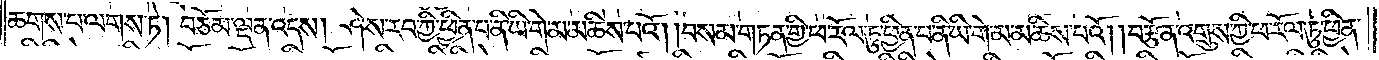ཆགས་པ་ལགས་ཏེ། བཅོམ་ལྡན་འདས། ཤེས་རབ་ཀྱི་ཕ་རོལ་ཏུ་ཕྱིན་པ་ནི་ཡི་གེ་མ་མཆིས་པའོ། །བསམ་གཏན་གྱི་ཕ་རོལ་ཏུ་ཕྱིན་པ་ནི་ཡི་གེ་མ་མཆིས་པའོ། །བརྩོན་འགྲུས་གྱི་ཕ་རོལ་ཏུ་ཕྱིན་
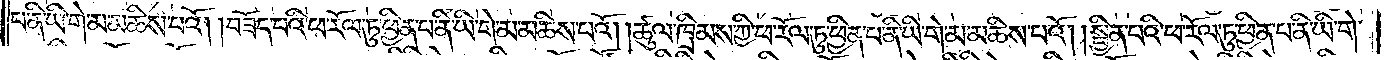པ་ནི་ཡི་གེ་མ་མཆིས་པའོ། །བཟོད་པའི་ཕ་རོལ་ཏུ་ཕྱིན་པ་ནི་ཡི་གེ་མ་མཆིས་པའོ། །ཚུལ་ཁྲིམས་ཀྱི་ཕ་རོལ་ཏུ་ཕྱིན་པ་ནི་ཡི་གེ་མ་མཆིས་པའོ། །སྦྱིན་པའི་ཕ་རོལ་ཏུ་ཕྱིན་པ་ནི་ཡི་གེ་
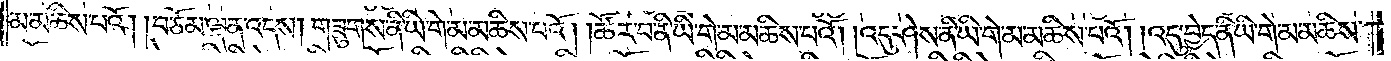མ་མཆིས་པའོ། །བཅོམ་ལྡན་འདས། གཟུགས་ནི་ཡི་གེ་མ་མཆིས་པའོ། །ཚོར་བ་ནི་ཡི་གེ་མ་མཆིས་པའོ། །འདུ་ཤེས་ནི་ཡི་གེ་མ་མཆིས་པའོ། །འདུ་བྱེད་ནི་ཡི་གེ་མ་མཆིས་
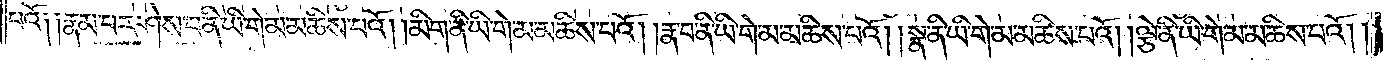པའོ༑ ༑རྣམ་པར་ཤེས་པ་ནི་ཡི་གེ་མ་མཆིས་པའོ། །མིག་ནི་ཡི་གེ་མ་མཆིས་པའོ། །རྣ་བ་ནི་ཡི་གེ་མ་མཆིས་པའོ། །སྣ་ནི་ཡི་གེ་མ་མཆིས་པའོ། །ལྕེ་ནི་ཡི་གེ་མ་མཆིས་པའོ། །
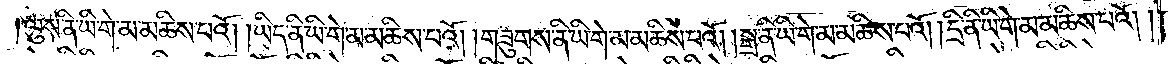ལུས་ནི་ཡི་གེ་མ་མཆིས་པའོ། །ཡིད་ནི་ཡི་གེ་མ་མཆིས་པའོ། །གཟུགས་ནི་ཡི་གེ་མ་མཆིས་པའོ། །སྒྲ་ནི་ཡི་གེ་མ་མཆིས་པའོ། །དྲི་ནི་ཡི་གེ་མ་མཆིས་པའོ། །
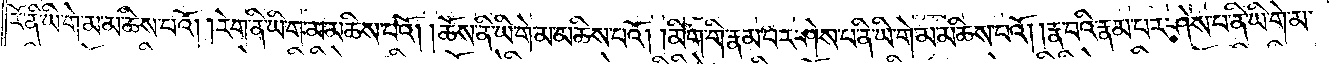རོ་ནི་ཡི་གེ་མ་མཆིས་པའོ། །རེག་ནི་ཡི་གེ་མ་མཆིས་པའོ། །ཆོས་ནི་ཡི་གེ་མ་མཆིས་པའོ། །མིག་གི་རྣམ་པར་ཤེས་པ་ནི་ཡི་གེ་མ་མཆིས་པའོ། །རྣ་བའི་རྣམ་པར་ཤེས་པ་ནི་ཡི་གེ་མ་
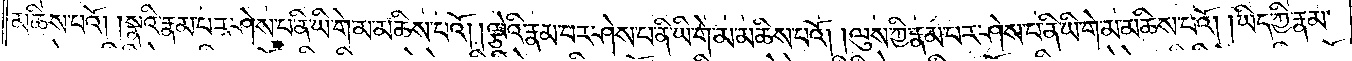མཆིས་པའོ། །སྣའི་རྣམ་པར་ཤེས་པ་ནི་ཡི་གེ་མ་མཆིས་པའོ། །ལྕེའི་རྣམ་པར་ཤེས་པ་ནི་ཡི་གེ་མ་མཆིས་པའོ། །ལུས་ཀྱི་རྣམ་པར་ཤེས་པ་ནི་ཡི་གེ་མ་མཆིས་པའོ། །ཡིད་ཀྱི་རྣམ་
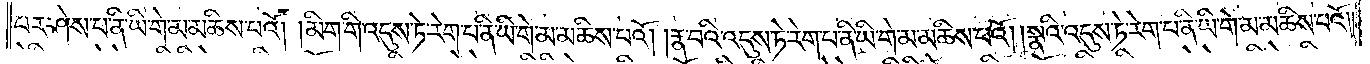པར་ཤེས་པ་ནི་ཡི་གེ་མ་མཆིས་པའོ། །མིག་གི་འདུས་ཏེ་རེག་པ་ནི་ཡི་གེ་མ་མཆིས་པའོ། །རྣ་བའི་འདུས་ཏེ་རེག་པ་ནི་ཡི་གེ་མ་མཆིས་པའོ། །སྣའི་འདུས་ཏེ་རེག་པ་ནི་ཡི་གེ་མ་མཆིས་པའོ༎
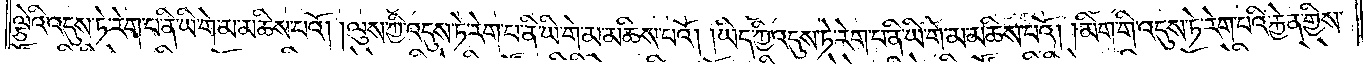ལྕེའི་འདུས་ཏེ་རེག་པ་ནི་ཡི་གེ་མ་མཆིས་པའོ། །ལུས་ཀྱི་འདུས་ཏེ་རེག་པ་ནི་ཡི་གེ་མ་མཆིས་པའོ། །ཡིད་ཀྱི་འདུས་ཏེ་རེག་པ་ནི་ཡི་གེ་མ་མཆིས་པའོ། །མིག་གི་འདུས་ཏེ་རེག་པའི་རྐྱེན་གྱིས་
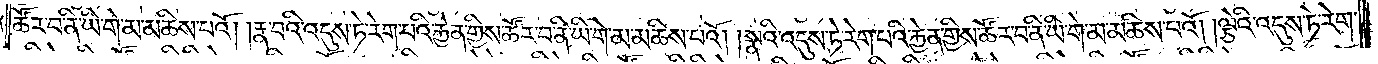ཚོར་བ་ནི་ཡི་གེ་མ་མཆིས་པའོ། །རྣ་བའི་འདུས་ཏེ་རེག་པའི་རྐྱེན་གྱིས་ཚོར་བ་ནི་ཡི་གེ་མ་མཆིས་པའོ། །སྣའི་འདུས་ཏེ་རེག་པའི་རྐྱེན་གྱིས་ཚོར་བ་ནི་ཡི་གེ་མ་མཆིས་པའོ། །ལྕེའི་འདུས་ཏེ་རེག་
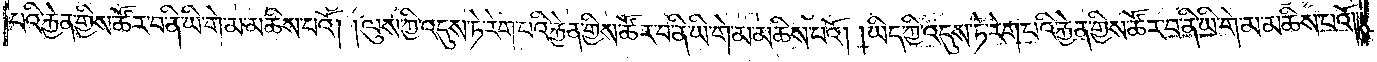པའི་རྐྱེན་གྱིས་ཚོར་བ་ནི་ཡི་གེ་མ་མཆིས་པའོ། །ལུས་ཀྱི་འདུས་ཏེ་རེག་པའི་རྐྱེན་གྱིས་ཚོར་བ་ནི་ཡི་གེ་མ་མཆིས་པའོ། །ཡིད་ཀྱི་འདུས་ཏེ་རེག་པའི་རྐྱེན་གྱིས་ཚོར་བ་ནི་ཡི་གེ་མ་མཆིས་པའོ༎
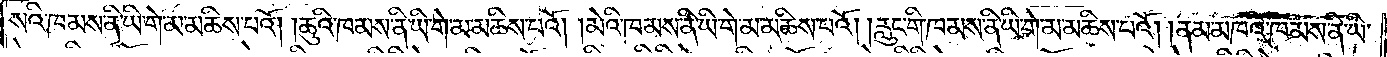སའི་ཁམས་ནི་ཡི་གེ་མ་མཆིས་པའོ། །ཆུའི་ཁམས་ནི་ཡི་གེ་མ་མཆིས་པའོ། །མེའི་ཁམས་ནི་ཡི་གེ་མ་མཆིས་པའོ། །རླུང་གི་ཁམས་ནི་ཡི་གེ་མ་མཆིས་པའོ། །ནམ་མཁའི་ཁམས་ནི་ཡི་
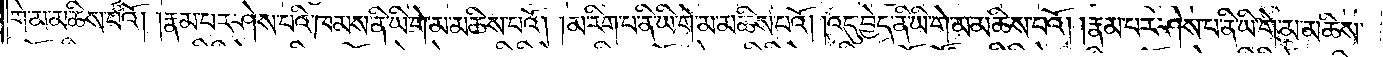གེ་མ་མཆིས་པའོ། །རྣམ་པར་ཤེས་པའི་ཁམས་ནི་ཡི་གེ་མ་མཆིས་པའོ། །མ་རིག་པ་ནི་ཡི་གེ་མ་མཆིས་པའོ། །འདུ་བྱེད་ནི་ཡི་གེ་མ་མཆིས་པའོ། །རྣམ་པར་མ་ཤེས་པ་ནི་ཡི་གེ་མ་མཆིས་
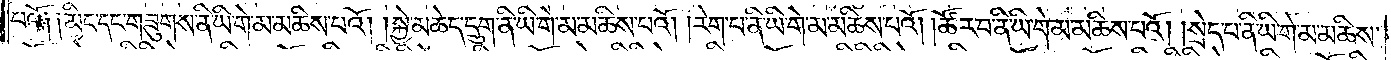པའོ༑ ༑མིང་དང་གཟུགས་ནི་ཡི་གེ་མ་མཆིས་པའོ། །སྐྱེ་མཆེད་དྲུག་ནི་ཡི་གེ་མ་མཆིས་པའོ། །རེག་པ་ནི་ཡི་གེ་མ་མཆིས་པའོ། །ཚོར་བ་ནི་ཡི་གེ་མ་མཆིས་པའོ། །སྲེད་པ་ནི་ཡི་གེ་མ་མཆིས་
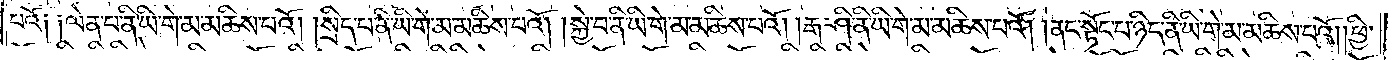པའོ༑ ༑ལེན་པ་ནི་ཡི་གེ་མ་མཆིས་པའོ། །སྲིད་པ་ནི་ཡི་གེ་མ་མཆིས་པའོ། །སྐྱེ་བ་ནི་ཡི་གེ་མ་མཆིས་པའོ། །རྒ་ཤི་ནི་ཡི་གེ་མ་མཆིས་པའོ། །ནང་སྟོང་པ་ཉིད་ནི་ཡི་གེ་མ་མཆིས་པའོ། །ཕྱི་
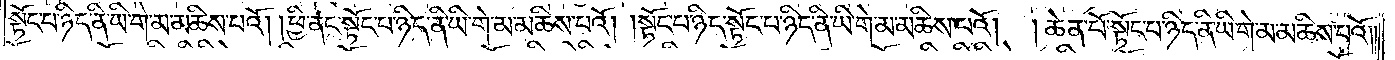སྟོང་པ་ཉིད་ནི་ཡི་གེ་མ་མཆིས་པའོ། །ཕྱི་ནང་སྟོང་པ་ཉིད་ནི་ཡི་གེ་མ་མཆིས་པའོ། །སྟོང་པ་ཉིད་སྟོང་པ་ཉིད་ནི་ཡི་གེ་མ་མཆིས་པའོ། །ཆེན་པོ་སྟོང་པ་ཉིད་ནི་ཡི་གེ་མ་མཆིས་པའོ༎
